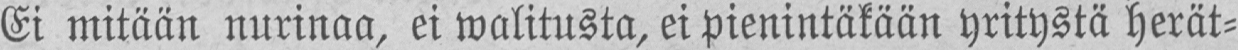Ei mitään nurinaa, ei walitusta, ei pienintäkään yritystä herät-
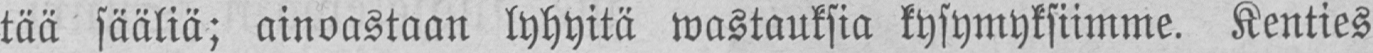tää sääliä; ainoastaan lyhyitä wastauksia kysymyksiimme. Kenties
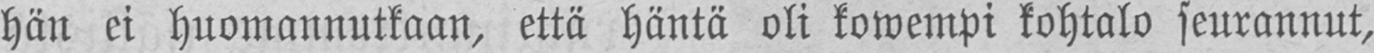hän ei huomannutkaan, että häntä oli kowempi kohtalo seurannut,
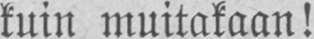kuin muitakaan!
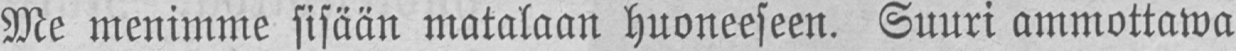Me menimme sisään matalaan huoneeseen. Suuri ammottawa
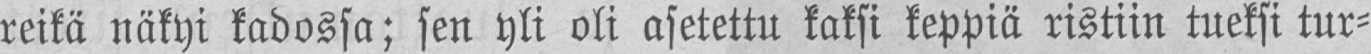reikä näkyi kadossa; sen yli oli asetettu kaksi keppiä ristiin tueksi tur-
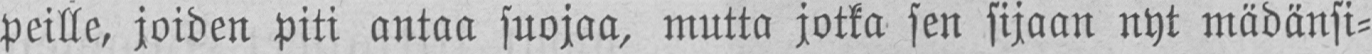peille, joiden piti antaa suojaa, mutta jotka sen sijaan nyt mädänsi-
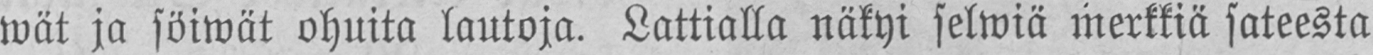wät ja söiwät ohuita lautoja. Lattialla näkyi selwiä merkkiä sateesta
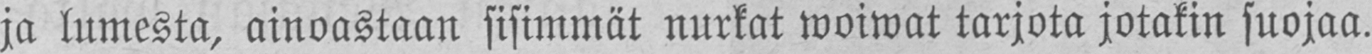ja lumesta, ainoastaan sisimmät nurkat woiwat tarjota jotakin suojaa.
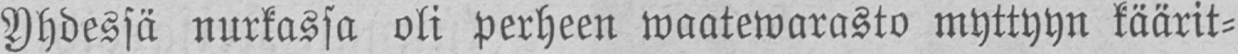Yhdessä nurkassa oli perheen waatewarasto myttyyn käärit-
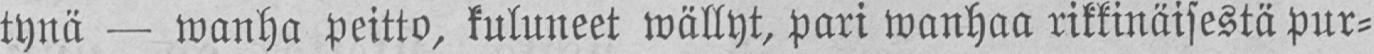tynä — wanha peitto, kuluneet wällyt, pari wanhaa rikkinäisestä pur-
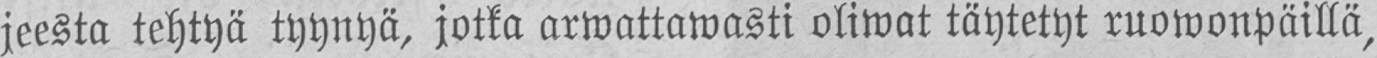jeesta tehtyä tyynyä, jotka arwattawasti oliwat täytetyt ruowonpäillä,
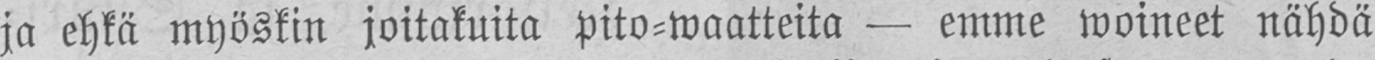ja ehkä myöskin joitakuita pito-waatteita - emme woineet nähdä
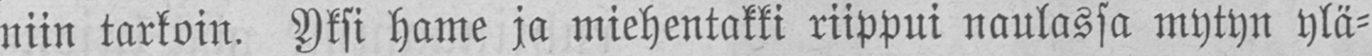niin tarkoin. Yksi hame ja miehentakki riippui naulassa mytyn ylä-
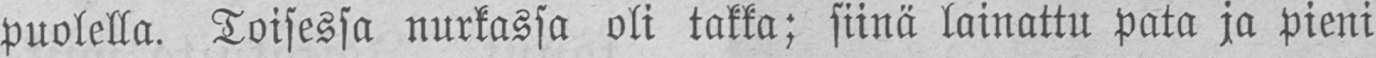puolella. Toisessa nurkassa oli takka; siinä lainattu pata ja pieni
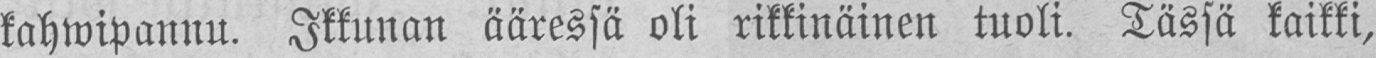kahwipannu. Ikkunan ääressä oli rikkinäinen tuoli. Tässä kaikki,
